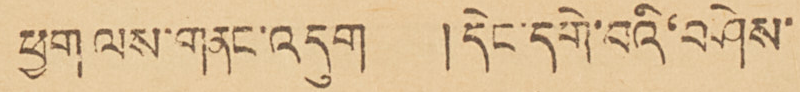ཕྱག ལས་གནང་འདུག །དེང་དགེ་བའི་བཤེས་
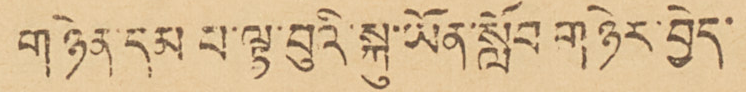གཉེན་དམ པ་ལྟ་བུའི་སྐུ་ཡོན་སློབ གཉེར་བྱེད་
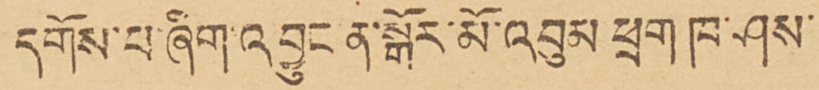དགོས་པ་ཞིག་འབྱུང ན་སྒོར་མོ་འབུམ ཕྲག ཁ་ཤས་
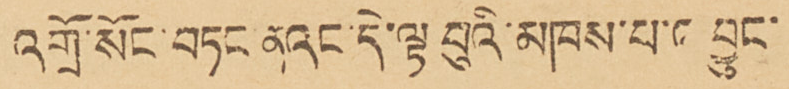འགྲོ་སོང་བཏང ནའང་དེ་ལྟ བུའི་མཁས་པ་འབྱུང་
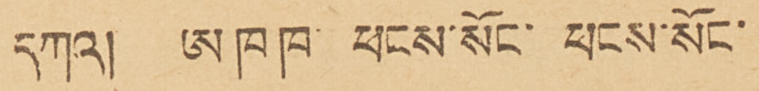དཀའ། ཨ ཁ ཁ་ ཕངས་སོང་ ཕངས་སོང་
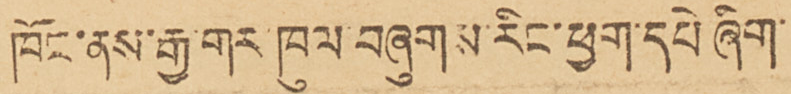ཁོང་ནས་རྒྱ་གར ཁུལ་བཞུགས་རིང་ཕྱག་དཔེ ཞིག་
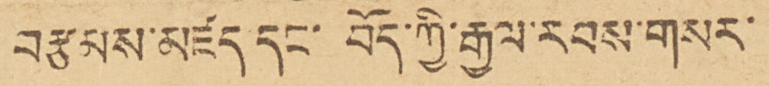བརྩམས་མཛད དང་ བོད་ཀྱི་རྒྱལ་རབས་གསར་
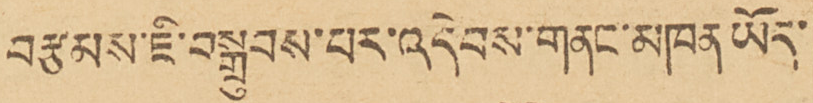བརྩམས་ཇི་བསྒྲུབས་པར་འདེབས་གནང་མཁན ཡོད་
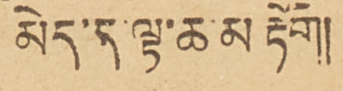མེད་ན་ལྟ་ཆ་མ རྟོག།།
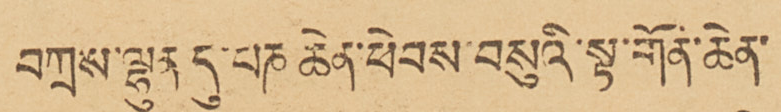བཀྲས་ལྷུན དུ་པཎ ཆེན་ཕེབས་བསུའི་སྟ་གོན་ཆེན་
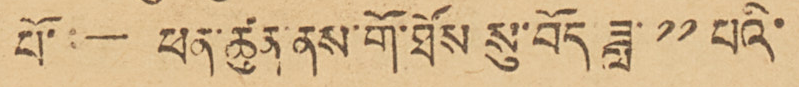པོ་ :— ཕན་ཚུན་ནས་གོ་ཐོས སུ་བོད་ཟླ་ ༡༡ པའི་
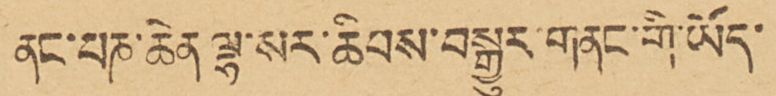ནང་པཎ་ཆེན ལྷ་སར་ཆིབས་བསྒྱུར་གནང་གི་ཡོད་
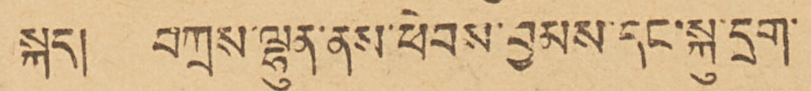སྐད། བཀྲས་ལྷུན་ནས་ཕེབས་བྱམས་དང་སྐུ་དྲག་
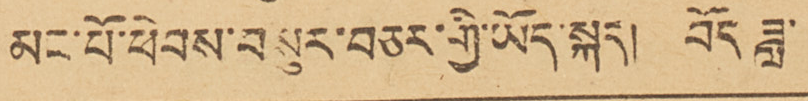མང་པོ་ཕེབས་བསུར་བཅར་གྱི་ཡོད་སྐད། བོད ཟླ་
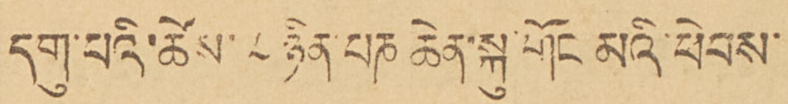དགུ་པའི་ཚེས་ ༨ ཉིན་པཎ ཆེན་སྐུ་གོང མའི་ཕེབས་
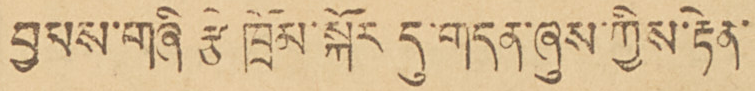བྱམས་གཞི རྩེ ཁྲོམ་སྐོར དུ་གདན་ཞུས་ཀྱིས་རྟེན་
